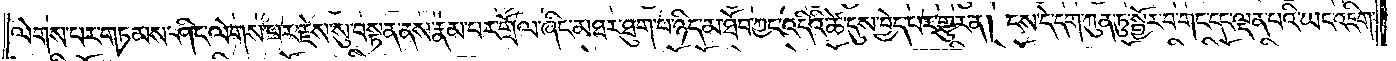ལེགས་པར་གཏམས་ཤིང་ལེགས་པར་རྗེས་སུ་བསྟན་ནས་རྣམ་པར་གྲོལ་ཞིང་མཐར་ཐུག་པ་ཉིད་མ་ཐོབ་ཀྱང་འདིའི་ཚེ་དུས་བྱེད་པར་གྱུར་ན། ངས་དེ་དག་ཀུན་ཏུ་སྦྱོར་བ་གང་དང་ལྡན་པའི་ཡང་འཇིག་
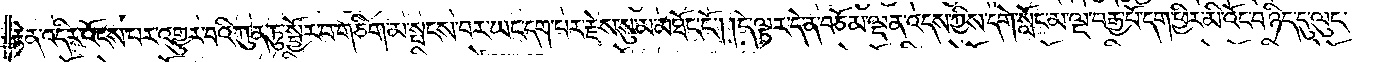རྟེན་འདིར་འོངས་པར་འགྱུར་བའི་ཀུན་ཏུ་སྦྱོར་བ་གཅིག་མ་སྤངས་བར་ཡང་དག་པར་རྗེས་སུ་མ་མཐོང་ངོ༌། །དེ་ལྟར་དེ་ན་བཅོམ་ལྡན་འདས་ཀྱིས་དགེ་སློང་མ་ལྔ་བརྒྱ་པོ་དག་ཕྱིར་མི་འོང་བ་ཉིད་དུ་ལུང་
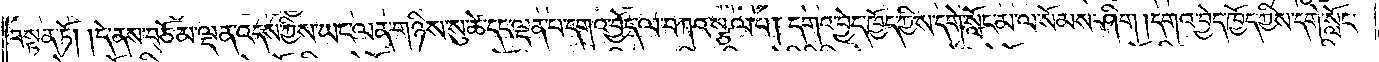བསྟན་ཏོ། །དེ་ནས་བཅོམ་ལྡན་འདས་ཀྱིས་ཡང་ལན་གཉིས་སུ་ཚེ་དང་ལྡན་པ་དགའ་བྱེད་ལ་བཀའ་སྩལ་པ། དགའ་བྱེད་ཁྱོད་ཀྱིས་དགེ་སློང་མ་ལ་སོམས་ཤིག །དགའ་བྱེད་ཁྱོད་ཀྱིས་དགེ་སློང་
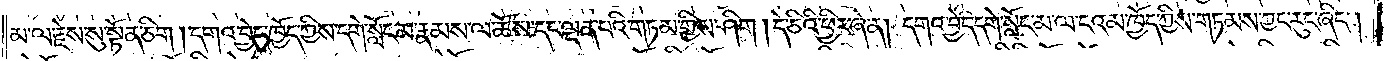མ་ལ་རྗེས་སུ་སྟོན་ཅིག །དགའ་བྱེད་ཁྱོད་ཀྱིས་དགེ་སློང་མ་རྣམས་ལ་ཆོས་དང་ལྡན་པའི་གཏམ་གྱིས་ཤིག །དེ་ཅིའི་ཕྱིར་ཞེ་ན། དགའ་བྱེད་དགེ་སློང་མ་ལ་ངའམ་ཁྱོད་ཀྱིས་གཏམས་ཀྱང་རུང་ཞིང༌།
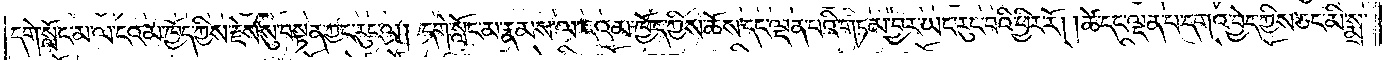དགེ་སློང་མ་ལ་ངའམ་ཁྱོད་ཀྱིས་རྗེས་སུ་བསྟན་ཀྱང་རུང་ལ། དགེ་སློང་མ་རྣམས་ལ་ངའམ་ཁྱོད་ཀྱིས་ཆོས་དང་ལྡན་པའི་གཏམ་བྱར་ཡང་རུང་བའི་ཕྱིར་རོ། །ཚེ་དང་ལྡན་པ་དགའ་བྱེད་ཀྱིས་ཅང་མི་སྨྲ་
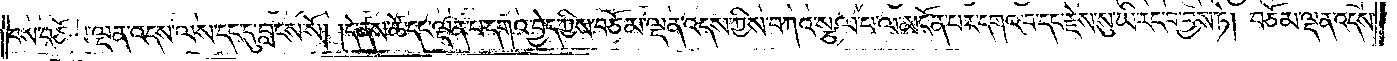བས་བཅོམ་ལྡན་འདས་ལས་དང་དུ་བླངས་སོ། །དེ་ནས་ཚེ་དང་ལྡན་པ་དགའ་བྱེད་ཀྱིས་བཅོམ་ལྡན་འདས་ཀྱིས་བཀའ་སྩལ་པ་ལ་མངོན་པར་དགའ་བ་དང་རྗེས་སུ་ཡི་རང་བ་བྱས་ཏེ། བཅོམ་ལྡན་འདས་
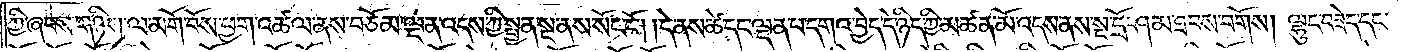ཀྱི་ཞབས་གཉིས་ལ་མགོ་བོས་ཕྱག་འཚལ་ནས་བཅོམ་ལྡན་འདས་ཀྱི་སྤྱན་སྔ་ནས་སོང་ངོ༌། །དེ་ནས་ཚེ་དང་ལྡན་པ་དགའ་བྱེད་དེ་ཉིད་ཀྱི་མཚན་མོ་འདས་ནས་སྔ་དྲོ་ཤམ་ཐབས་བགོས། ལྷུང་བཟེད་དང་
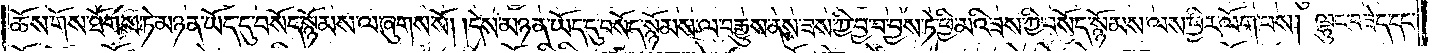ཆོས་གོས་ཐོགས་ཏེ་མཉན་ཡོད་དུ་བསོད་སྙོམས་ལ་ཞུགས་སོ། །དེས་མཉན་ཡོད་དུ་བསོད་སྙོམས་ལ་བརྒྱུས་ནས་ཟས་ཀྱི་བྱ་བ་བྱས་ཏེ་ཕྱི་མའི་ཟས་ཀྱི་བསོད་སྙོམས་ལས་ཕྱིར་ལོག་པས། ལྷུང་བཟེད་དང་
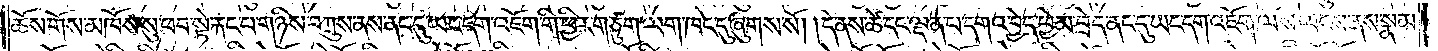ཆོས་གོས་མཁོས་སུ་ཕབ་སྟེ་རྐང་པ་གཉིས་བཀྲུས་ནས་ནང་དུ་ཡང་དག་འཇོག་གི་ཕྱིར་གཙུག་ལག་ཁང་དུ་ཞུགས་སོ། །དེ་ནས་ཚེ་དང་ལྡན་པ་དགའ་བྱེད་ཕྱེམ་བྲེད་ནང་དུ་ཡང་དག་འཇོག་ལས་ལངས་ནས་སྣམ་
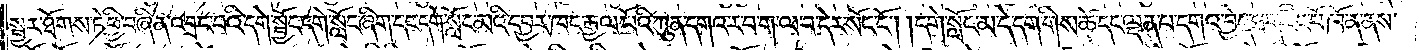སྦྱར་ཐོགས་ཏེ་ཕྱི་བཞིན་འབྲང་བའི་དགེ་སྦྱོང་དགེ་སློང་ཞིག་དང་དགེ་སློང་མའི་དབྱར་ཁང་རྒྱལ་པོའི་ཀུན་དགའ་ར་བ་ག་ལ་བ་དེར་སོང་ངོ༌། །དགེ་སློང་མ་དེ་དག་གིས་ཚེ་དང་ལྡན་པ་དགའ་བྱེད་ཐག་རིང་པོ་ཁོ་ན་ནས་
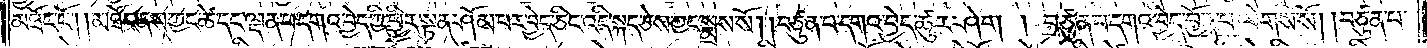མཐོང་ངོ༌། །མཐོང་ནས་ཀྱང་ཚེ་དང་ལྡན་པ་དགའ་བྱེད་ཀྱི་ཕྱིར་སྟན་ཤོམ་པར་བྱེད་ཅིང་འདི་སྐད་ཅེས་ཀྱང་སྨྲས་སོ། །བཙུན་པ་དགའ་བྱེད་ཚུར་ཤེག ། བཙུན་པ་དགའ་བྱེད་བྱོན་པ་ལེགས་སོ། །བཙུན་པ་
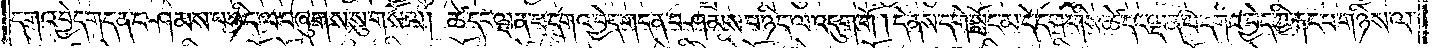དགའ་བྱེད་གདན་བཤམས་པ་ཉིད་ལ་བཞུགས་སུ་གསོལ། ཚེ་དང་ལྡན་པ་དགའ་བྱེད་གདན་བཤམས་པ་ཉིད་ལ་འདུག་གོ །དེ་ནས་དགེ་སློང་མ་དེ་དག་གིས་ཚེ་དང་ལྡན་པ་དགའ་བྱེད་ཀྱི་རྐང་པ་གཉིས་ལ་
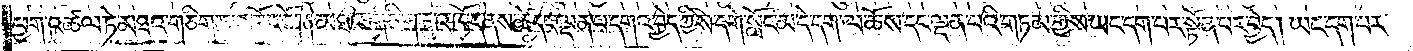ཕྱག་འཚལ་ཏེ་མཐའ་གཅིག་ཏུ་འཁོད་དོ། །མཐའ་གཅིག་ཏུ་འཁོད་ནས་ཚེ་དང་ལྡན་པ་དགའ་བྱེད་ཀྱིས་དགེ་སློང་མ་དེ་དག་ལ་ཆོས་དང་ལྡན་པའི་གཏམ་གྱིས་ཡང་དག་པར་སྟོན་པར་བྱེད། ཡང་དག་པར་
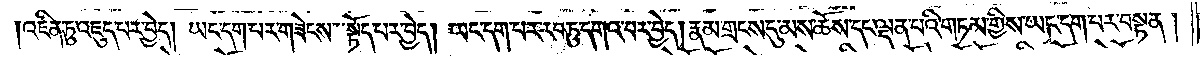འཛིན་ཏུ་འཇུད་པར་བྱེད། ཡང་དག་པར་གཟེངས་སྟོད་པར་བྱེད། ཡང་དག་པར་རབ་ཏུ་དགའ་བར་བྱེད། རྣམ་གྲངས་དུ་མས་ཆོས་དང་ལྡན་པའི་གཏམ་གྱིས་ཡང་དག་པར་བསྟན།
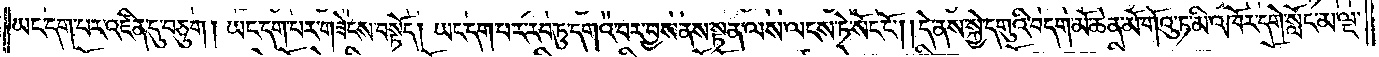ཡང་དག་པར་འཛིན་དུ་བཅུག །ཡང་དག་པར་གཟེངས་བསྟོད། ཡང་དག་པར་རབ་ཏུ་དགའ་བར་བྱས་ནས་སྟན་ལས་ལངས་ཏེ་སོང་ངོ༌། །དེ་ནས་སྐྱེ་དགུའི་བདག་མོ་ཆེན་མོ་གོའུ་ཏ་མི་འཁོར་དགེ་སློང་མ་ལྔ་
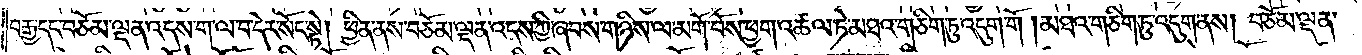བརྒྱ་དང་བཅོམ་ལྡན་འདས་ག་ལ་བ་དེར་སོང་སྟེ། ཕྱིན་ནས་བཅོམ་ལྡན་འདས་ཀྱིས་ཞབས་གཉིས་ལ་མགོ་བོས་ཕྱག་འཚལ་ཏེ་མཐའ་གཅིག་ཏུ་འདུག་གོ །མཐའ་གཅིག་ཏུ་འདུག་ནས། བཅོམ་ལྡན་
